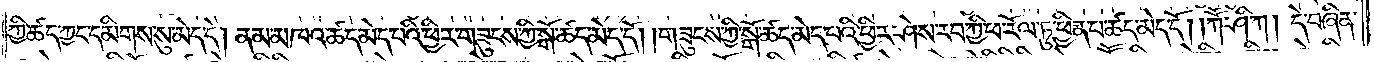ཀྱི་ཚད་ཀྱང་དམིགས་སུ་མེད་དེ། ནམ་མཁའ་ཚད་མེད་པའི་ཕྱིར་གཟུངས་ཀྱི་སྒོ་ཚད་མེད་དོ། །གཟུངས་ཀྱི་སྒོ་ཚད་མེད་པའི་ཕྱིར་ཤེས་རབ་ཀྱི་ཕ་རོལ་ཏུ་ཕྱིན་པ་ཚད་མེད་དོ། །ཀཽ་ཤི་ཀ། དེ་བཞིན་
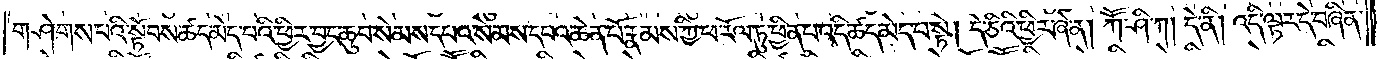གཤེགས་པའི་སྟོབས་ཚད་མེད་པའི་ཕྱིར་བྱང་ཆུབ་སེམས་དཔའ་སེམས་དཔའ་ཆེན་པོ་རྣམས་ཀྱི་ཕ་རོལ་ཏུ་ཕྱིན་པ་འདི་ཚད་མེད་པ་སྟེ། དེ་ཅིའི་ཕྱིར་ཞེ་ན། ཀཽ་ཤི་ཀ། དེ་ནི། འདི་ལྟར་དེ་བཞིན་
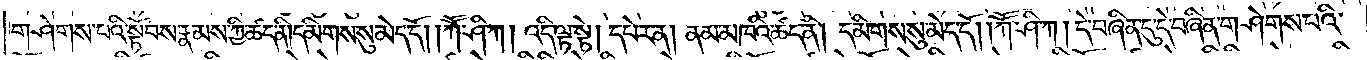གཤེགས་པའི་སྟོབས་རྣམས་ཀྱི་ཚད་ནི།དམིགས་སུ་མེད་དོ། །ཀཽ་ཤི་ཀ། འདི་ལྟ་སྟེ། དཔེར་ན། ནམ་མཁའི་ཚད་ནི། དམིགས་སུ་མེད་དོ། །ཀཽ་ཤི་ཀ། དེ་བཞིན་དུ་དེ་བཞིན་གཤེགས་པའི་
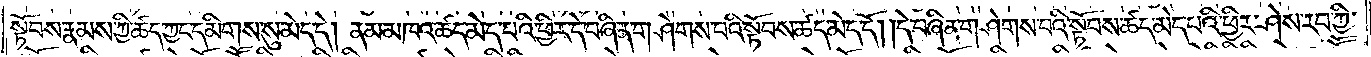སྟོབས་རྣམས་ཀྱི་ཚད་ཀྱང་དམིགས་སུ་མེད་དེ། ནམ་མཁའ་ཚད་མེད་པའི་ཕྱིར་དེ་བཞིན་གཤེགས་པའི་སྟོབས་ཚད་མེད་དོ། །དེ་བཞིན་གཤེགས་པའི་སྟོབས་ཚད་མེད་པའི་ཕྱིར་ཤེས་རབ་ཀྱི་
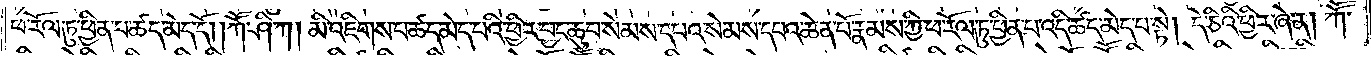ཕ་རོལ་ཏུ་ཕྱིན་པ་ཚད་མེད་དོ། །ཀཽ་ཤི་ཀ། མི་འཇིགས་པ་ཚད་མེད་པའི་ཕྱིར་བྱང་ཆུབ་སེམས་དཔའ་སེམས་དཔའ་ཆེན་པོ་རྣམས་ཀྱི་ཕ་རོལ་ཏུ་ཕྱིན་པ་འདི་ཚད་མེད་པ་སྟེ། དེ་ཅིའི་ཕྱིར་ཞེ་ན། ཀཽ་
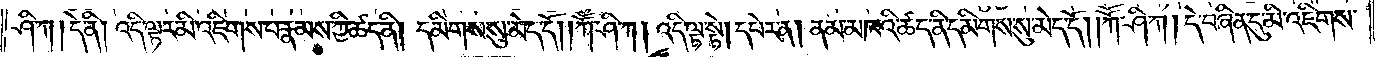ཤི་ཀ། དེ་ནི། འདི་ལྟར་མི་འཇིགས་པ་རྣམས་ཀྱི་ཚད་ནི། དམིགས་སུ་མེད་དོ། །ཀཽ་ཤི་ཀ། འདི་ལྟ་སྟེ། ནམ་མཁའི་ཚད་ནི་དམིགས་སུ་མེད་དོ། །ཀཽ་ཤི་ཀ། དེ་བཞིན་དུ་མི་འཇིགས་
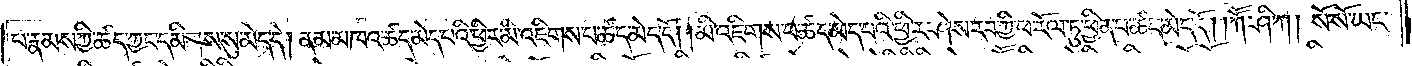པ་རྣམས་ཀྱི་ཚད་ཀྱང་དམིགས་སུ་མེད་དེ། ནམ་མཁའ་ཚད་མེད་པའི་ཕྱིར་མི་འཇིགས་པ་ཚད་མེད་དོ། །མི་འཇིགས་པ་ཚད་མེད་པའི་ཕྱིར་ཤེས་རབ་ཀྱི་ཕ་རོལ་ཏུ་ཕྱིན་པ་ཚད་མེད་དོ། །ཀཽ་ཤི་ཀ། སོ་སོ་ཡང་
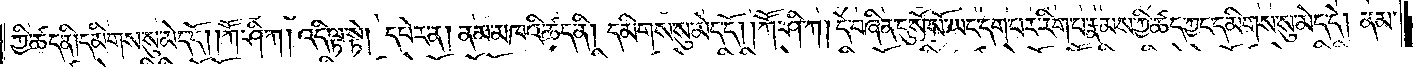ཀྱི་ཚད་ནི། དམིགས་སུ་མེད་དོ། །ཀཽ་ཤི་ཀ། །འདི་ལྟ་སྟེ། དཔེར་ན། ནམ་མཁའི་ཚད་ནི། དམིགས་སུ་མེད་དོ། །ཀཽ་ཤི་ཀ། དེ་བཞིན་དུ་སོ་སོ་ཡང་དག་པར་རིག་པ་རྣམས་ཀྱི་ཚད་ཀྱང་དམིགས་སུ་མེད་དེ། ནམ་
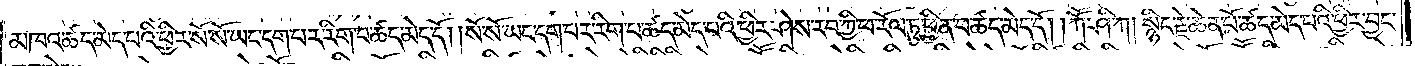མཁའ་ཚད་མེད་པའི་ཕྱིར་སོ་སོ་ཡང་དག་པར་རིག་པ་ཚད་མེད་དོ། །སོ་སོ་ཡང་དག་པར་རིག་པ་ཚད་མེད་པའི་ཕྱིར་ཤེས་རབ་ཀྱི་ཕ་རོལ་ཏུ་ཕྱིན་པ་ཚད་མེད་དོ། །ཀཽ་ཤི་ཀ། སྙིང་རྗེ་ཆེན་པོ་ཚད་མེད་པའི་ཕྱིར་བྱང་
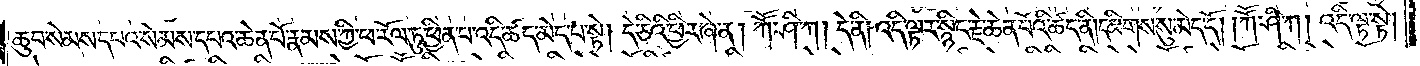ཆུབ་སེམས་དཔའ་སེམས་དཔའ་ཆེན་པོ་རྣམས་ཀྱི་ཕ་རོལ་ཏུ་ཕྱིན་པ་འདི་ཚད་མེད་པ་སྟེ། དེ་ཅིའི་ཕྱིར་ཞེ་ན། ཀཽ་ཤི་ཀ། དེ་ནི། འདི་ལྟར་སྙིང་རྗེ་ཆེན་པོའི་ཚད་ནི། དམིགས་སུ་མེད་དོ། །ཀཽ་ཤི་ཀ། འདི་ལྟ་སྟེ།
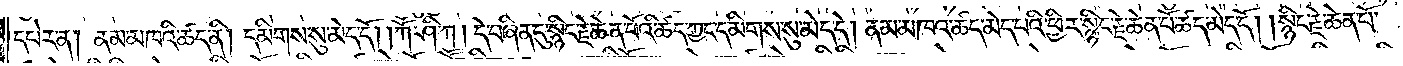དཔེར་ན། ནམ་མཁའི་ཚད་ནི། དམིགས་སུ་མེད་དོ། །ཀཽ་ཤི་ཀ། དེ་བཞིན་དུ་སྙིང་རྗེ་ཆེན་པོའི་ཚད་ཀྱང་དམིགས་སུ་མེད་དེ། ནམ་མཁའ་ཚད་མེད་པའི་ཕྱིར་སྙིང་རྗེ་ཆེན་པོ་ཚད་མེད་དོ། །སྙིང་རྗེ་ཆེན་པོ་
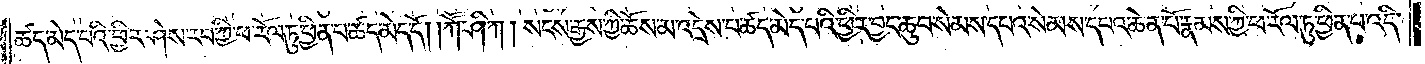ཚད་མེད་པའི་ཕྱིར་ཤེས་རབ་ཀྱི་ཕ་རོལ་ཏུ་ཕྱིན་པ་ཚད་མེད་དོ། །ཀཽ་ཤི་ཀ། སངས་རྒྱས་ཀྱི་ཆོས་མ་འདྲེས་པ་ཚད་མེད་པའི་ཕྱིར་བྱང་ཆུབ་སེམས་དཔའ་སེམས་དཔའ་ཆེན་པོ་རྣམས་ཀྱི་ཕ་རོལ་ཏུ་ཕྱིན་པ་འདི་
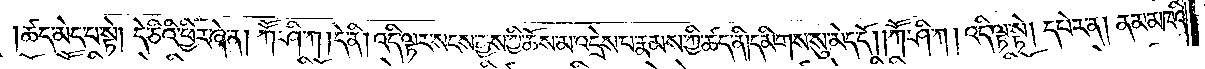ཚད་མེད་པ་སྟེ། དེ་ཅིའི་ཕྱིར་ཞེ་ན། ཀཽ་ཤི་ཀ། དེ་ནི། འདི་ལྟར་སངས་རྒྱས་ཀྱི་ཆོས་མ་འདྲེས་པ་རྣམས་ཀྱི་ཚད་ནི། དམིགས་སུ་མེད་དོ། །ཀཽ་ཤི་ཀ། འདི་ལྟ་སྟེ། དཔེར་ན། ནམ་མཁའི་
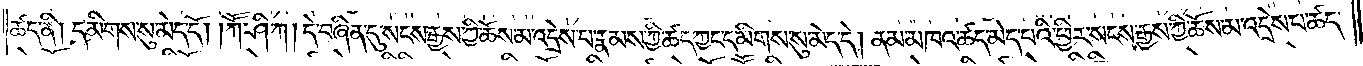ཚད་ནི། དམིགས་སུ་མེད་དོ། །ཀཽ་ཤི་ཀ། དེ་བཞིན་དུ་སངས་རྒྱས་ཀྱི་ཆོས་མ་འདྲེས་པ་རྣམས་ཀྱི་ཚད་ཀྱང་དམིགས་སུ་མེད་དེ། ནམ་མཁའ་ཚད་མེད་པའི་ཕྱིར་སངས་རྒྱས་ཀྱི་ཆོས་མ་འདྲེས་པ་ཚད་
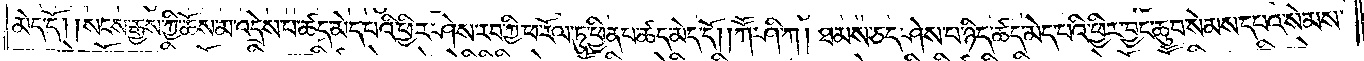མེད་དོ། །སངས་རྒྱས་ཀྱི་ཆོས་མ་འདྲེས་པ་ཚད་མེད་པའི་ཕྱིར་ཤེས་རབ་ཀྱི་ཕ་རོལ་ཏུ་ཕྱིན་པ་ཚད་མེད་དོ། །ཀཽ་ཤི་ཀ། ཐམས་ཅད་ཤེས་པ་ཉིད་ཚད་མེད་པའི་ཕྱིར་བྱང་ཆུབ་སེམས་དཔའ་སེམས་
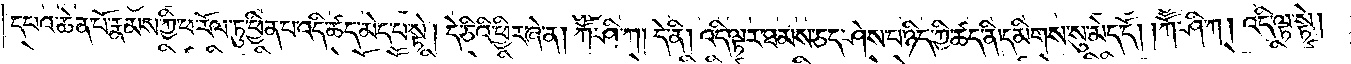དཔའ་ཆེན་པོ་རྣམས་ཀྱི་ཕ་རོལ་ཏུ་ཕྱིན་པ་འདི་ཚད་མེད་པ་སྟེ། དེ་ཅིའི་ཕྱིར་ཞེ་ན། ཀཽ་ཤི་ཀ། དེ་ནི། འདི་ལྟར་ཐམས་ཅད་ཤེས་པ་ཉིད་ཀྱི་ཚད་ནི་དམིགས་སུ་མེད་དོ། །ཀཽ་ཤི་ཀ། འདི་ལྟ་སྟེ།
